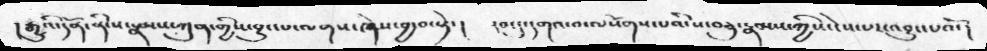། རྒྱུའི་དོན་ནི་ས་རྣམས་ཀུན་གྱིས་བྱུང་པ་ལགས་ཞེས་བྱ་བ་སྟེ་།  རབ་ཏུ་དགའ་བ་ལསོགས་པའི་ས་བཅུ་རྣམས་ཀྱིས་ངེས་པར་འབྱུང་པའོ་།
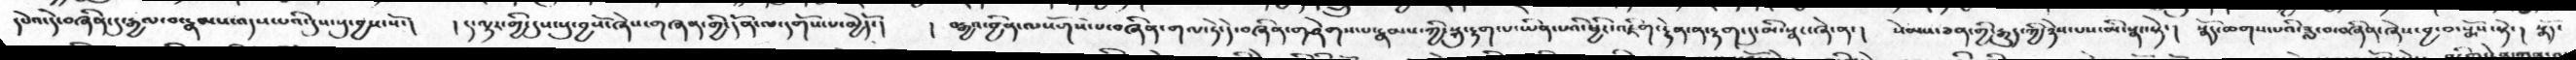དཔེའ་དེ་བཞིན་དུ་རྒྱལ་བ་རྣམས་འདས་པའི་དུས་སུ་བྱས་སོ་།  ། ད་ལྟར་གྱི་དུས་སུ་བྱསོ་ཞེས་གཞན་གྱི་དོན་ལ་དགོས་པ་མྱེདོ་།  ། བརྒྱའ་བྱིན་ལསོགས་པ་བཞིན་གལ་ཏེ་དེ་བཞིན་གཤེགས་པ་རྣམས་ཀྱི་སྐུ་རྟག་པ་ཡིན་པའི་ཕྱིར་འཇིག་རྟེན་ན་རྟག་དུ་མི་སྣང་ཞེ་ན་།  སེམས་ཅན་གྱི་རྒྱུད་ཀྱི་ཉེས་པས་མི་སྣང་སྟེ་།  སྣོད་ཆགས་པའི་ཟླ་བ་བཞིན་ཞེས་བྱ་བ་སྨོས་སྟེ་།  སྣོད་
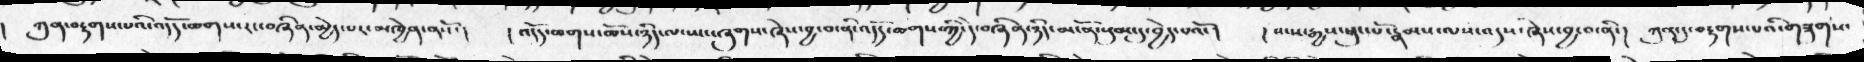།  ཀུན་བརྟགས་པའི་འདོད་ཆགས་རང་བཞིན་མྱེད་པར་མཁྱེན་ནསོ་།  ། འདོད་ཆགས་ཆོས་ཉིད་ལ་ཡང་ཞུགས་ཞེས་བྱ་བ་ནི་འདོད་ཆགས་ཀྱི་དེ་བཞིན་ཉིད་མངོན་སུམ་དུ་བྱེད་པའོ་།  ། སངས་རྒྱས་ཕུང་པོ་རྣམས་ལས་འདས་ཞེས་བྱ་བ་ནི་།  ཀུན་དུ་བརྟགས་པའི་གཟུགས་
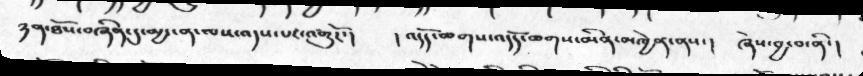ཉན་ཐོས་བཞིན་དུ་མྱ་ངན་ལས་འདས་པར་འགྱུརོ་།  །འདོད་ཆགས་འདོད་ཆགས་མིན་མཁྱེན་ནས་།  ཞེས་བྱ་བ་ནི་།
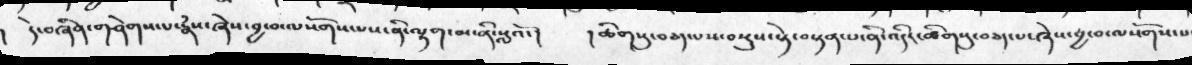།  དེ་བཞིན་གཤེགས་པ་རྣཾས་ཞེས་བྱ་བ་ལསོགས་པས་ནི་ལྷག་མ་ནི་སླའོ་།   །ཚིགསུ་བཅད་པས་བསྡུས་སྟེ་བསྟན་པ་ནི་འདིར་ཚིགསུ་བཅད་པ་ཞེས་བྱ་བ་ལསོགས་པ་
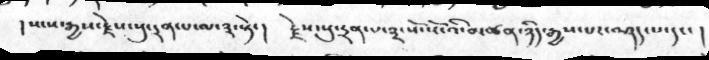།སངས་རྒྱས་རྗེས་སུ་དྲན་པ་ལ་༣་སྟེ་།  རྗེས་སུ་དྲན་པ་༣་སོ་སོ་འི་མཚན་ཉིད་རྒྱས་པར་བཤད་པ་དང་།
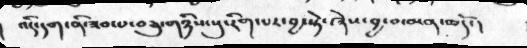།  འདི་དག་ནི་ཟབ་པ་བཅུ་གཉིས་སུ་རིག་པར་བྱ་སྟེ་ཞེས་བྱ་བ་མན་ཆདོ་།
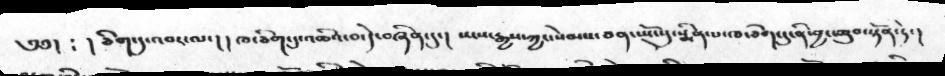༄༅། ༴ །ཅིག་དུ་འབར་ལ་། །ཁ་ཅིག་དུ་འཆིའ་བ་དེ་བཞིན་དུ་།  སངས་རྒྱས་ཀྱང་སེམས་ཅན་ཡོངས་སུ་སྨིན་པ་ཁ་ཅིག་དུ་ནི་བྱང་ཆུབ་སྟོན་ཏེ་།
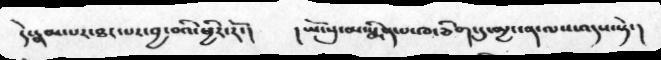དེ་རྣམ་པར་ཐར་པར་བྱ་བའི་ཕྱིར་རོ་།  ། ཡོངས་སུ་མ་སྨིན་པ་ཁ་ཅིག་དུ་མྱ་ངན་ལས་འདས་ཏེ་།
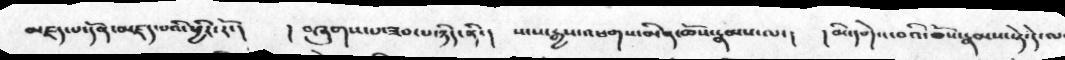མཛད་པ་དོན་མཛད་པའི་ཕྱིར་རོ་།  ། བཞུགས་པ་ཟབ་པ་ཉིད་ནི་།  སངས་རྒྱས་འཕགས་མིན་ཆོས་རྣམས་ལ་།  །མི་དགེའ་བའི་ཆོས་རྣམས་སྟེ་དེ་ལ་
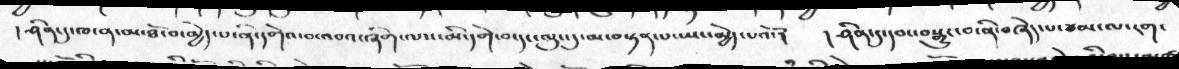། ཤིན་དུ་ཁ་ན་མ་ཐོ་བ་མྱེད་པ་ནི་དགེའ་བ་འབའ་ཞིག་ལས་མི་དགེ་བ་དང་ལུང་དུ་མ་བསྟན་པ་ཡང་མྱེད་པའོ་།    ། ཤིན་དུ་དབང་བསྒྱུར་བ་ནི་བཞེད་པ་ཙམ་ལ་རག་
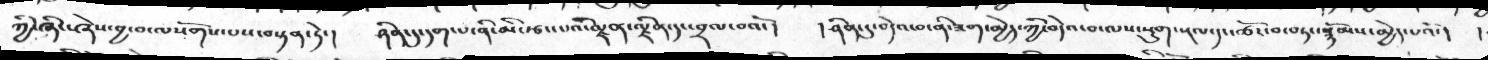ཀྱི་ཞིང་ཞེས་བྱ་བ་ལསོགས་པས་བསྟན་ཏེ་།    ཤིན་དུ་དག་པ་ནི་མི་རྩང་པའི་ལྗན་ལྗིན་དང་བྲལ་བའོ་།     ། ཤིན་དུ་བདེའ་བ་ནི་ཟག་མྱེད་ཀྱི་བདེའ་བ་ལས་སྡུག་སྔལ་དང་ཚོར་བ་བཏང་སྙོམས་མྱེད་པའོ་།   །
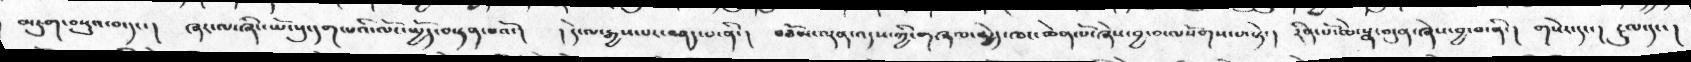མཇུག་བསྡུས་པ་དང་།  ཞར་ལ་ཞིང་ཡོངསུ་དག་པའི་ལོང་སྤྱོད་བསྟན་པའོ་།  ། དེ་ལ་རྒྱས་པར་བཤད་པ་ནི་།  བཅོམ་ལྡན་འདས་ཀྱི་གཞལ་མྱེད་ཁང་ཆེན་པོ་ཞེས་བྱ་བ་ལསོགས་པ་སྟེ་།  རིན་པོ་ཆེ་སྣ་བདུན་ཞེས་བྱ་བ་ནི་།  གསེར་དང་།  ངུལ་དང་།
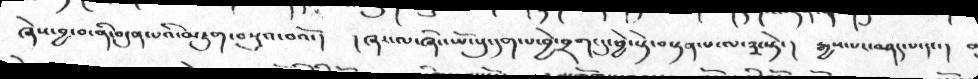ཞེས་བྱ་བ་ནི་བདུན་པའི་མཇུག་བསྡུའ་བའོ་།   །ཞར་ལ་ཞིང་ཡོངསུ་དག་པ་བྱེ་བྲག་དུ་ཕྱེ་སྟེ་བསྟན་པ་ལ་༣་སྟེ་།  རྒྱས་པར་བཤད་པ་དང་
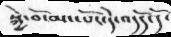སྐྱེ་བོ་མང་པོར་དེ་འདོད་དོ་
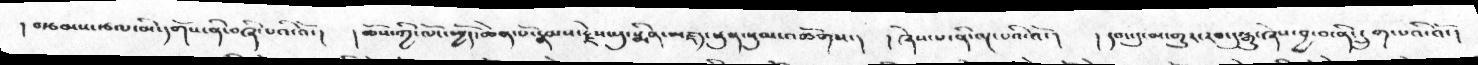།  བརྩམས་རྩལ་མི་དགོས་ནི་བཞི་པའི་འོ་།  །ཆོས་ཀྱི་ལོངས་སྤྱོད་ཆེན་པོ་རྣམས་རྗེས་སུ་སྨིན་མཛད་ཕུན་སུམ་འཚོགས་།  ། ཞེས་པ་ནི་ལྔ་པའི་འོ་།  །དབང་དུ་མ་གྱུར་རབ་དུསྒྱུ་ཞེས་བྱ་བ་ནི་དྲུག་པའི་འོ་།
